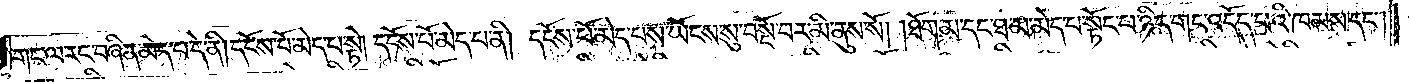གང་ལ་རང་བཞིན་མེད་པ་དེ་ནི། དངོས་པོ་མེད་པ་སྟེ། དངོས་པོ་མེད་པ་ནི། དངོས་པོ་མེད་པས་ཡོངས་སུ་བསྔོ་བར་མི་ནུས་སོ། །ཐོག་མ་དང་ཐ་མ་མེད་པ་སྟོང་པ་ཉིད་གང་འདོད་པའི་ཁམས་དང༌།
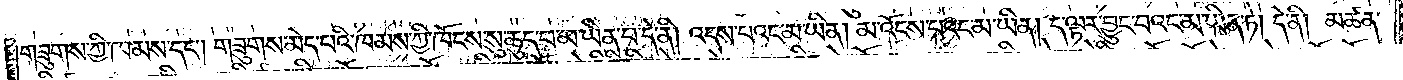གཟུགས་ཀྱི་ཁམས་དང༌། གཟུགས་མེད་པའི་ཁམས་ཀྱི་ཁོངས་སུ་ཆུད་པ་མ་ཡིན་པ་དེ་ནི། འདས་པའང་མ་ཡིན། མ་འོངས་པའང་མ་ཡིན། ད་ལྟར་བྱུང་བའང་མ་ཡིན་ཏེ། དེ་ནི། མཚན་
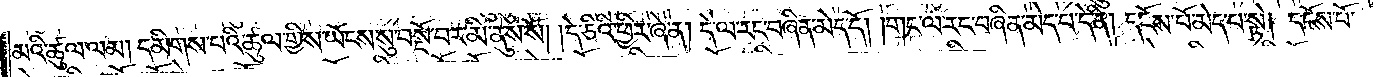མའི་ཚུལ་ལམ། དམིགས་པའི་ཚུལ་གྱིས་ཡོངས་སུ་བསྔོ་བར་མི་ནུས་སོ། །དེ་ཅིའི་ཕྱིར་ཞེ་ན། དེ་ལ་རང་བཞིན་མེད་དོ། །གང་ལ་རང་བཞིན་མེད་པ་དེ་ནི། དངོས་པོ་མེད་པ་སྟེ། དངོས་པོ་
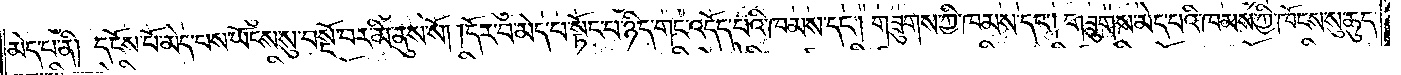མེད་པ་ནི། དངོས་པོ་མེད་པས་ཡོངས་སུ་བསྔོ་བར་མི་ནུས་སོ། །དོར་བ་མེད་པ་སྟོང་པ་ཉིད་གང་འདོད་པའི་ཁམས་དང༌། གཟུགས་ཀྱི་ཁམས་དང༌། གཟུགས་མེད་པའི་ཁམས་ཀྱི་ཁོངས་སུ་ཆུད་
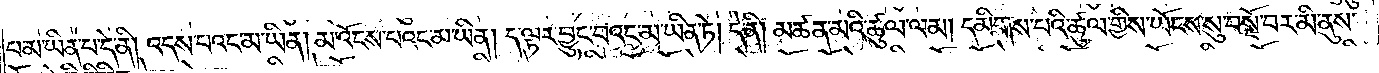པ་མ་ཡིན་པ་དེ་ནི། འདས་པའང་མ་ཡིན། མ་འོངས་པའང་མ་ཡིན། ད་ལྟར་བྱུང་བའང་མ་ཡིན་ཏེ། དེ་ནི། མཚན་མའི་ཚུལ་ལམ། དམིགས་པའི་ཚུལ་གྱིས་ཡོངས་སུ་བསྔོ་བར་མི་ནུས་
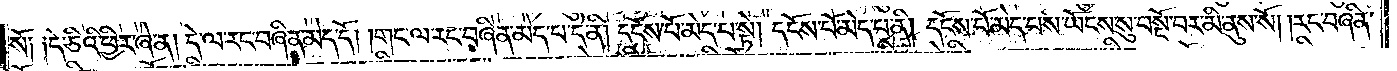སོ༑ ༑དེ་ཅིའི་ཕྱིར་ཞེ་ན། དེ་ལ་རང་བཞིན་མེད་དོ། །གང་ལ་རང་བཞིན་མེད་པ་དེ་ནི། དངོས་པོ་མེད་པ་སྟེ། དངོས་པོ་མེད་པ་ནི། དངོས་པོ་མེད་པས་ཡོངས་སུ་བསྔོ་བར་མི་ནུས་སོ། །རང་བཞིན་
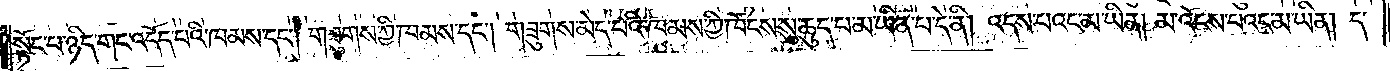སྟོང་པ་ཉིད་གང་འདོད་པའི་ཁམས་དང༌། གཟུགས་ཀྱི་ཁམས་དང༌། གཟུགས་མེད་པའི་ཁམས་ཀྱི་ཁོངས་སུ་ཆུད་པ་མ་ཡིན་པ་དེ་ནི། འདས་པའང་མ་ཡིན། མ་འོངས་པའང་མ་ཡིན། ད་
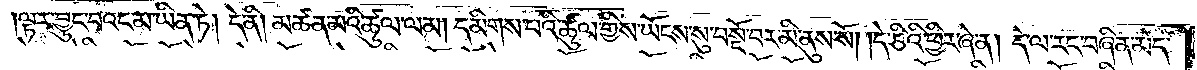ལྟར་བྱུང་བའང་མ་ཡིན་ཏེ། དེ་ནི། མཚན་མའི་ཚུལ་ལམ། དམིགས་པའི་ཚུལ་གྱིས་ཡོངས་སུ་བསྔོ་བར་མི་ནུས་སོ། །དེ་ཅིའི་ཕྱིར་ཞེ་ན། དེ་ལ་རང་བཞིན་མེད་
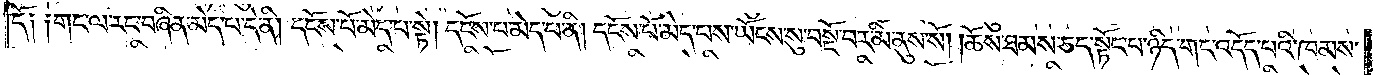དོ༑ ༑གང་ལ་རང་བཞིན་མེད་པ་དེ་ནི། དངོས་པོ་མེད་པ་སྟེ། དངོས་པོ་མེད་པ་ནི། དངོས་པོ་མེད་པས་ཡོངས་སུ་བསྔོ་བར་མི་ནུས་སོ། །ཆོས་ཐམས་ཅད་སྟོང་པ་ཉིད་གང་འདོད་པའི་ཁམས་
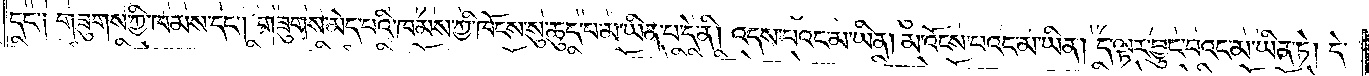དང་༑ གཟུགས་ཀྱི་ཁམས་དང༌། གཟུགས་མེད་པའི་ཁམས་ཀྱི་ཁོངས་སུ་ཆུད་པ་མ་ཡིན་པ་དེ་ནི། འདས་པའང་མ་ཡིན། མ་འོངས་པའང་མ་ཡིན། ད་ལྟར་བྱུང་བའང་མ་ཡིན་ཏེ། དེ་
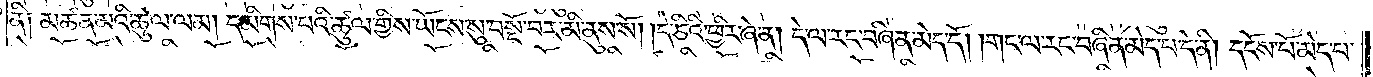ནི༑ མཚན་མའི་ཚུལ་ལམ། དམིགས་པའི་ཚུལ་གྱིས་ཡོངས་སུ་བསྔོ་བར་མི་ནུས་སོ། །དེ་ཅིའི་ཕྱིར་ཞེ་ན། དེ་ལ་རང་བཞིན་མེད་དོ། །གང་ལ་རང་བཞིན་མེད་པ་དེ་ནི། དངོས་པོ་མེད་པ་
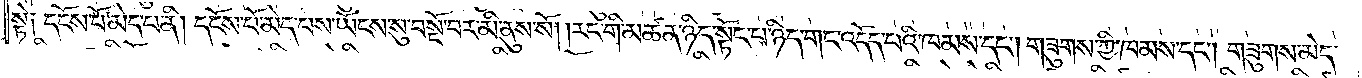སྟེ༑ དངོས་པོ་མེད་པ་ནི། དངོས་པོ་མེད་པས་ཡོངས་སུ་བསྔོ་བར་མི་ནུས་སོ། །རང་གི་མཚན་ཉིད་སྟོང་པ་ཉིད་གང་འདོད་བའི་ཁམས་དང༌། གཟུགས་ཀྱི་ཁམས་དང༌། གཟུགས་མེད་
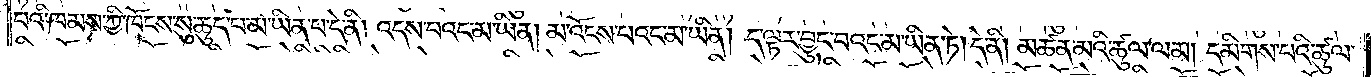པའི་ཁམས་ཀྱི་ཁོངས་སུ་ཆུད་པ་མ་ཡིན་པ་དེ་ནི། འདས་པའང་མ་ཡིན། མ་འོངས་པའང་མ་ཡིན། ད་ལྟར་བྱུང་བའང་མ་ཡིན་ཏེ། དེ་ནི། མཚན་མའི་ཚུལ་ལམ། དམིགས་པའི་ཚུལ་
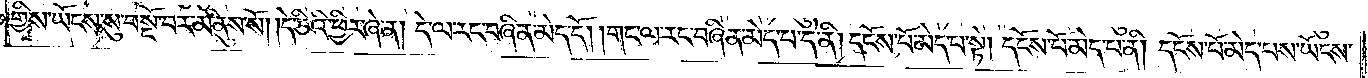གྱིས་ཡོངས་སུ་བསྔོ་བར་མི་ནུས་སོ། །དེ་ཅིའི་ཕྱིར་ཞེ་ན། དེ་ལ་རང་བཞིན་མེད་དོ། གང་ལ་རང་བཞིན་མེད་པ་དེ་ནི། དངོས་པོ་མེད་པ་སྟེ། དངོས་པོ་མེད་པ་ནི། དངོས་པོ་མེད་པས་ཡོངས་
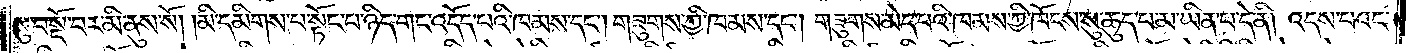སུ་བསྔོ་བར་མི་ནུས་སོ། །མི་དམིགས་པ་སྟོང་པ་ཉིད་གང་འདོད་པའི་ཁམས་དང༌། གཟུགས་ཀྱི་ཁམས་དང༌། གཟུགས་མེད་པའི་ཁམས་ཀྱི་ཁོངས་སུ་ཆུད་པ་མ་ཡིན་པ་དེ་ནི། འདས་པའང་
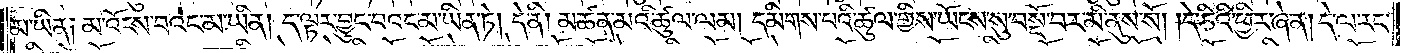མ་ཡིན༑ མ་འོངས་པའང་མ་ཡིན། ད་ལྟར་བྱུང་བའང་མ་ཡིན་ཏེ། དེ་ནི། མཚན་མའི་ཚུལ་ལམ། དམིགས་པའི་ཚུལ་གྱིས་ཡོངས་སུ་བསྔོ་བར་མི་ནུས་སོ། །དེ་ཅིའི་ཕྱིར་ཞེ་ན། དེ་ལ་རང་
